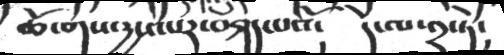ཆོ་གས་རྱས་པར་བཤད་པའོ། དེ་ལ་༢་ཏེ།
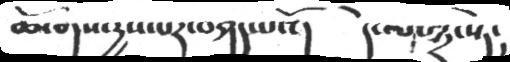ཆོ་གས་རྱས་པར་བཤད་པའོ། དེ་ལ་༣་སྟེ།
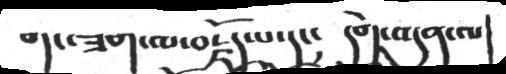གང་ཟག་བརྗོད་པ་དང། དགེ་འདུན་ལ
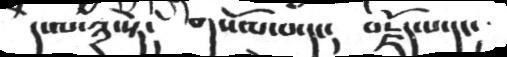ད་ལ་༣་སྟེ།  གསོལ་པ་དང།   བརྗོད་པ་དང།
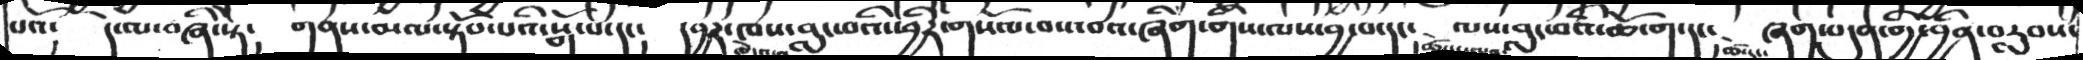པའོ༴  དེ་ལ་བཞི་སྟེ༴  གནས་མལ་སྟོབ་པའི་སྒོ་པ་དང༴   དབྱར་ཁས་བླང་བའི་ཕྱིར་གསོལ་བས་བའ་ཞིག་གིས་ལས་བྱ་བ་དང་  ལས་བླང་བའི་ཆོ་ག་དང༴   ཞག་བདུན་གྱི་བྱིན་བརླབས་
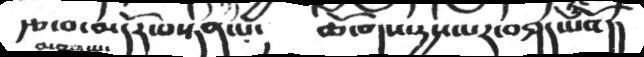རྩ་བ་མདོར་བསྟན་པ༴   ཆོ་ག་དྱས་པར་བཤད་པའོ།།
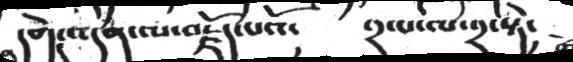དགེ་འདུན་ལ་བརྗོད་པའོ།  ༢་པ་ལ་༢་སྟེ།
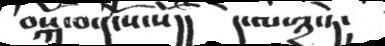བསྐ་བ་དངོས་སོ།།   དེ་ལ་༣་ཏེ།
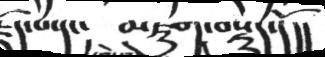རྗོད་པ་དང༴   མཇུག་བསྡུད་དོ།།
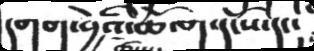དགག་བྱེའི་ཆོ་ག་དངོས་དང་
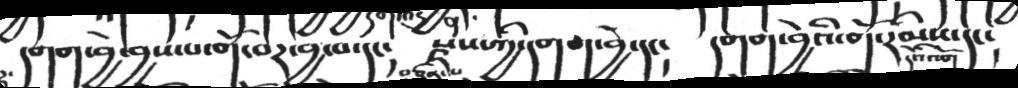དགག་བྱེད་བྱས་པ་གོ་བར་བྱ་བ་དང༴   རྫས་ཀྱི་དགག་བྱེ་དང༴  དགག་བྱེའི་གོ་རིམས་དང༴
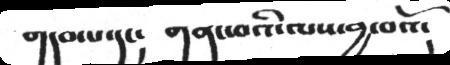གདབ་པ་དང། གནང་བའི་ལས་བྱ་བའོ།
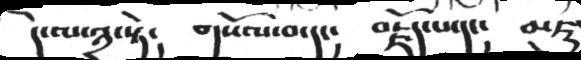དེ་ལ་༣་སྟེ། གསོལ་བ་དང། བརྗོད་པ་དང། མཇུ
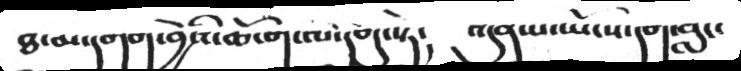ཐ་མ་དགགབྱེའི་ཆོ་ག་ལ་དབང་སྟེ།  འདུན་པ་ཡོངས་དག་བླང་
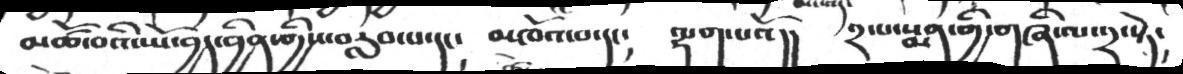མཚོ་བའི་ཡོད་བྱད་བྱིན་གྱིས་བརླབ་པ་དང༴   མཁོའ་བ་དང༴  ལྷག་པའོ།།  ༢་པ་སྨན་གྱི་གཞི་ལ་༢་སྟེ༴
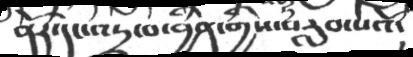ནོར་དང་འདྲ་བ་བྱིན་གྱིས་བརླབ་པའོ་
